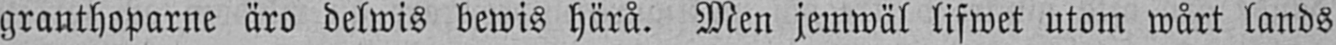granthoparne äro delwis bewis härå. Men jemwäl lifwet utom wårt lands
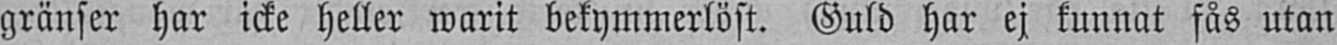gränser har icke heller warit bekymmerlöst. Guld har ej kunnat fås utan
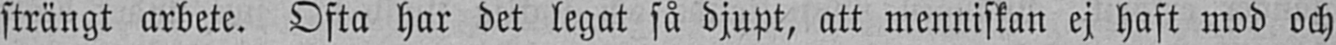strängt arbete. Ofta har det legat så djupt, att menniskan ej haft mod och
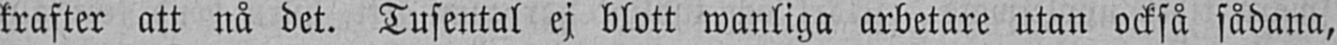krafter att nå det. Tusental ej blott wanliga arbetare utan också sådana,
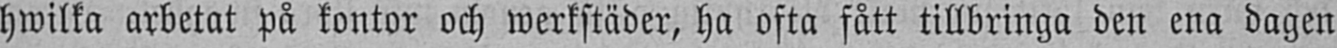hwilka arbetat på kontor och werkstäder, ha ofta fått tillbringa den ena dagen
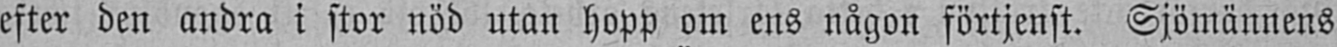efter den andra i stor nöd utan hopp om ens någon förtjenst. Sjömännens
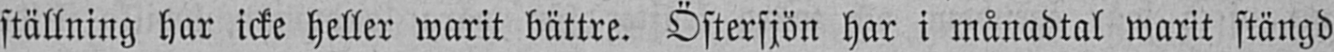ställning har icke heller warit bättre. Östersjön har i månadtal warit stängd
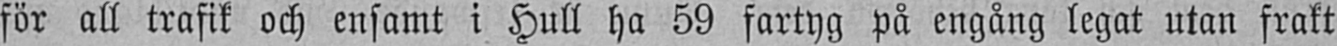för all trafik och ensamt i Hull ha 59 fartyg på engång legat utan frakt
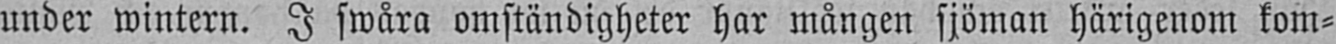under wintern. I swåra omständigheter har mången sjöman härigenom kom-
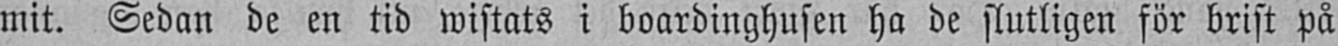mit. Sedan de en tid wistats i boardinghusen ha de slutligen för brist på
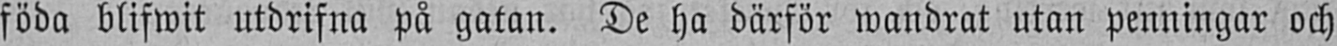föda blifwit utdrifna på gatan. De ha därför wandrat utan penningar och
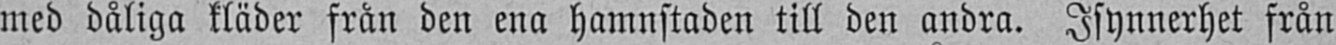med dåliga kläder från den ena hamnstaden till den andra. Isynnerhet från
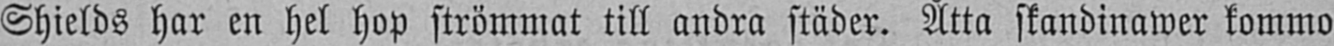Shields har en hel hop strömmat till andra städer. Åtta skandinawer kommo
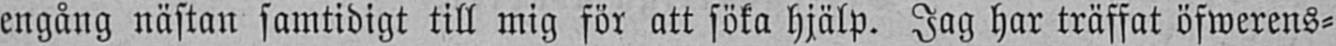engång nästan samtidigt till mig för att söka hjälp. Jag har träffat öfwerens-
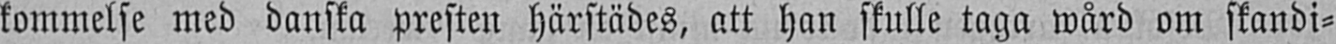kommelse med danska presten härstädes, att han skulle taga wård om skandi-
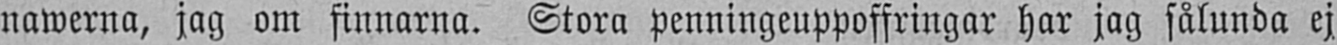nawerna, jag om finnarna. Stora penningeuppoffringar har jag sålunda ej
